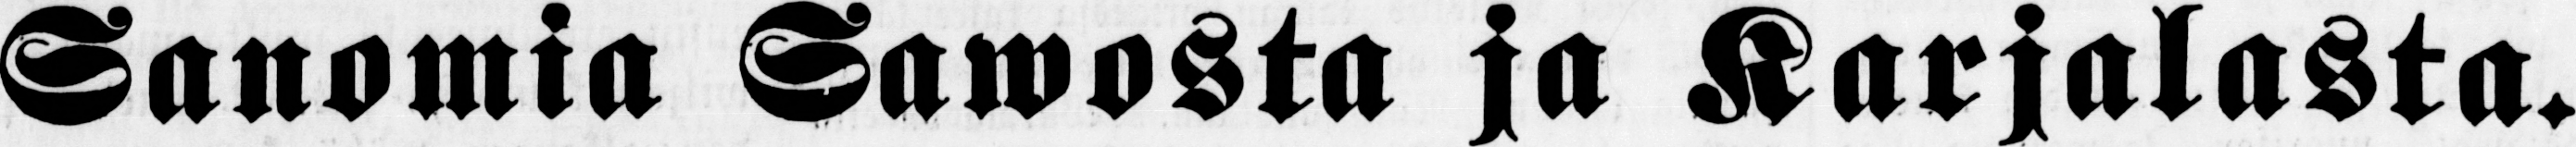Sanomia Sawosta ja Karjalasta.
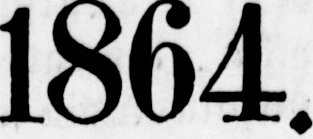1864.
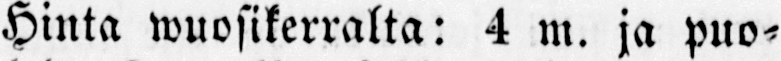Hinta wuosikerralta: 4 m. ja puo-
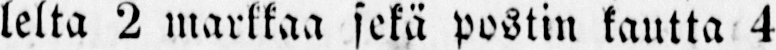lelta 2 markkaa sekä postin kautta 4
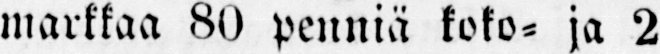markkaa 80 penniä koko- ja 2
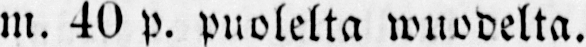m. 40 p. puolelta wuodelta.
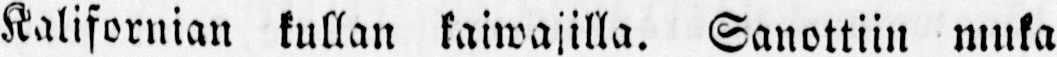Kalifornian kullan kaiwajilla. Sanottiin muka
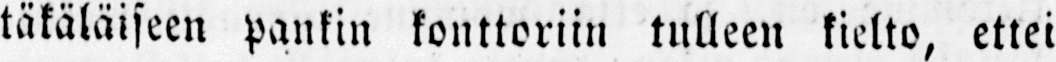täkäläiseen pankin konttoriin tulleen kielto, ettei
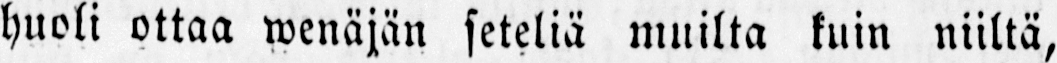huoli ottaa wenäjän seteliä muilta kuin niiltä,
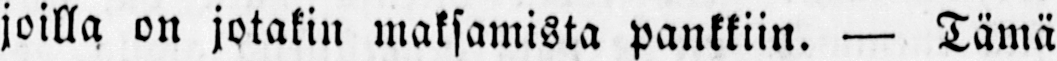joilla on jotakin maksamista pankkiin. — Tämä
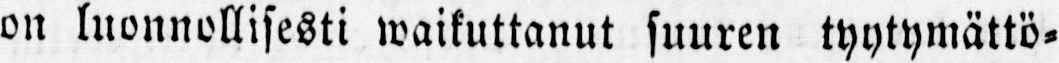on luonnollisesti waikuttanut suuren tyytymättö-
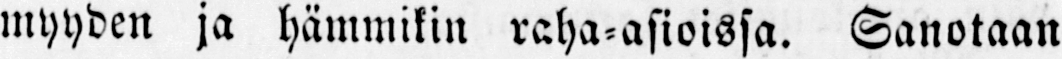myyden ja hämmikin raha-asioissa. Sanotaan
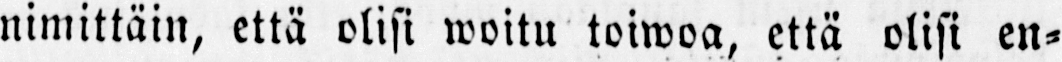nimittäin, että olisi woitu toiwoa, että olisi en-
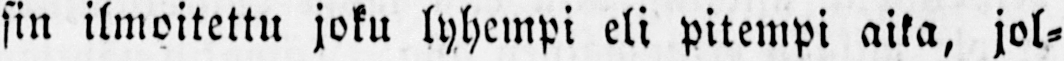sin ilmoitettu joku lyhempi eli pitempi aika, jol-
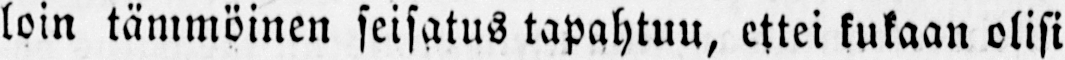loin tämmöinen seisatus tapahtuu, ettei kukaan olisi
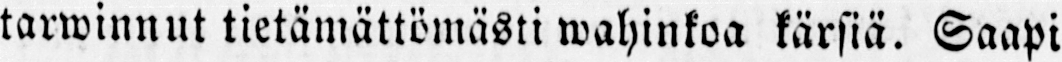tarwinnut tietämättömäsi wahinkoa kärsiä. Saapi
